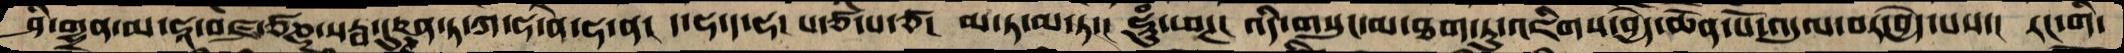ཤི་གྷྲན་མ་ཧཱ་བཛྲ་ཙཎྚ་སརྦ་དུཥྚན་ཏ་ཀ་ཧ་ན་ཧ་ན། ད་ཧ་ད་ཧ་ པ་ཙ་པ་ཙ་ མ་ཏ་མ་ཏ་ ཧཱུཾ་ཕཊ། འདི་གསུང་མ་ཐག་ཏུ་འཇིགས་བྱེད་ཆེན་པོ་འདུལ་བར་བྱེད་པས་། རང་གི་
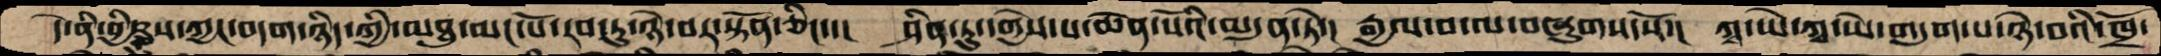དེ་ནི་བྱིཥྞས་ཀྱང་བདག་ཉིད་ཀྱི་མཐུ་མང་པོ་རབ་ཏུ་ཉེ་བར་སྟོན་ཅིང་་། ཤིན་ཏུ་དགྱེས་པ་ཆེན་པོའི་མདུན་ཏེ་། རྒྱལ་བ་ལ་བཞུགས་སོ་། ཀྵ་ཡེ་ཀྵ་ཡེ་གདུག་པ་ཉེ་བའི་ཁྲོ་
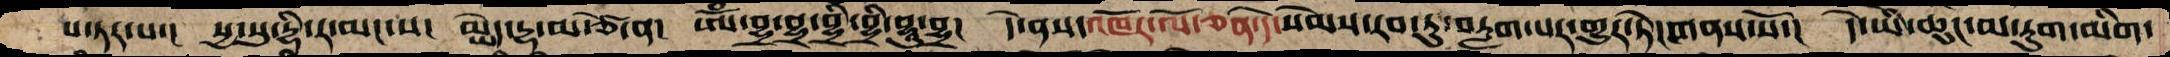པ་ཏར་པ་། སྱ་སུ་དྷི་ར་མང་ས། མྱེད་དྷ་མ་ཙེ་ན། ཨོཾ་བྷྲ་བྷྲ་བྷྲི་བྷྲི་བྷཱུ་བྷྲ། དེ་ནས་འཁོར་ལོ་ཅན་དེ་སེམས་རབ་ཏུ་བརླག་པར་གྱུར་ཏེ་གནས་སོ་། དེ་ཡི་ཆུང་མ་རུག་མིག་
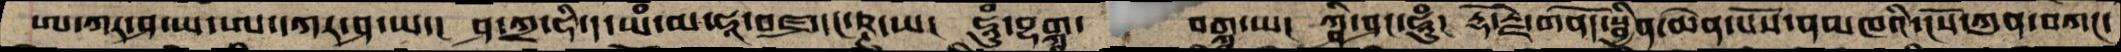ཨ་ཀར་ཤ་ཡ་ཨ་དཀར་ཤ་ཡ་། ཤ་ཀྲ་ཧི་ད་ཡཾ་མ་ཧཱ་བཛྲ་དང་ཥྚ་ཡ། ཧཱུཾ་བྷགྩ་  བགྩཡ། ཀྴི་ཤང་ཧཱུཾ། རྡོ་རྗེ་གནོད་སྦྱིན་ཆེན་པོས་ནམཁའི་ངོས་ཀུན་བཀང་
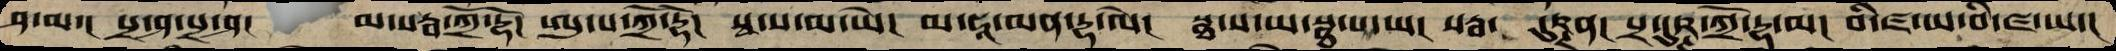ཤ་མ་། པྲ་ཤ་པྲ་ཤ་  མ་སརྦ་ཀྲོ་དྷོ། ཨུ་པ་ཀྲོ་དྷ། སྭ་ས་མ་ཡེ། མ་ཧཱ་མན་དྷ་ལེ། སྠ་ས་ཡ་སྠ་པ་ཡ། སརྦ་ དུཥྚན། པྲ་དུཥྚ་ཀྲོ་དྷ་མ། བི་ཛ་ཡ་བི་ཛ་ཡ།
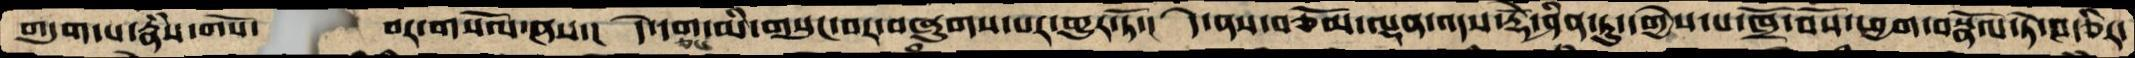གདུག་པ་རྣཾས་གསོ་    བར་གསོལ་ནས་། དེ་དག་ཅང་མི་གསུང་བར་བཞུགས་པར་གྱུར་ཏོ་། དེ་ནས་བཅོམ་ལྡན་འདས་རྡོེ་ཤིན་ཏུ་དགྱེས་པ་ཁྲོ་བོས་ཕྱག་བསྣོལ་ཏེ་བརྩིར་
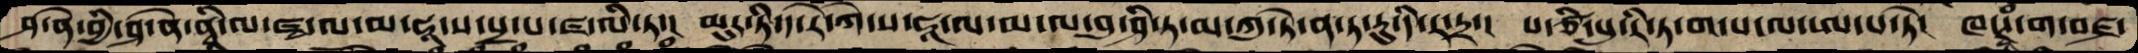ཤ་ནེ་བྱི་ཤ་ནེ་ནི་ལ་ཛྭ་ལ་མ་ཧཱ་ས་པྲ་པ་ཛ་ལི་ཏ་།  མུར་ཏི་ད་རེ་ཀེ་ས་ཧཱ་ལ་མ་ལ་བུ་ཤི་ཏ་མ་ཀུ་ཏེ་ན་ཏ་རུ་དི་ར་ཏྲ་། པ་ཙི་སུ་རི་ཏ་ག་པ་ལ་ཨ་པ་ཏེ་ ཁ་ཊྭཾ་ག་བཛྲ་
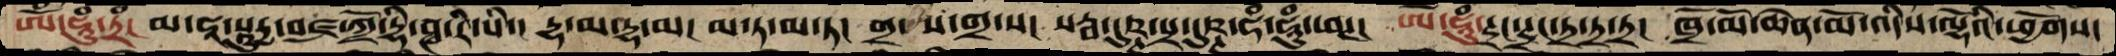ཨོཾ་ཧཱུཾ་ཏྲཾ་ མ་ཧཱ་སཱུརྱ་བཛྲ་ཀྲོ་དྷི་ཥྚ་རི་པི་།  དྷ་མ་དྷ་མ་ མ་ཏ་མ་ཏ་  གྲ་ས་གྲ་ས་ སརྦ་དུཋྚ་པྲ་དུཋྚ་ཧཾ་ཧཱུཾ་ཕཊ།  ཨོཾ་ཧཱུཾ་ཊྲང་ཊྲང་ཏྲ་ཏྲ་  ཁྲོ་མོ་ཆེན་མོ་འདིས་ལྷོའི་ཕྱོགས་
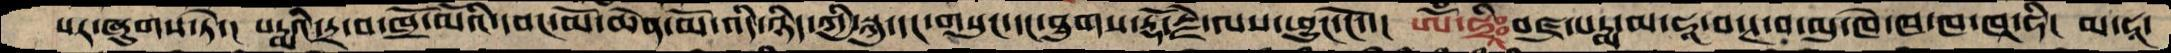པར་ཞུགས་ཏེ་།  པདྨའི་ཏྲ་བ་ཁྲོ་མོའི་དབང་མོ་ཆེན་མོ་འདི་ཉིད་ཀྱི་སྐུ་དང་གསུང་དང་ཐུགས་རྡོ་རྗེ་ལས་ཕྱུང་ངོ་་།  ཨོཾ་ཧྲཱིཿབཛྲ་པདྨ་མ་ཧཱ་བ་ཊ་བ་མུ་ཁེ་ཁ་ཁ་ཁཱ་ཧི།  མ་ཧཱ་
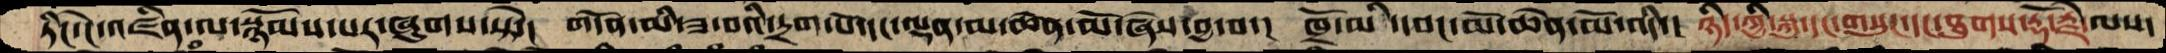ཏིང་ངེ་འཛིན་ལ་སྙོམས་པར་ཞུགས་པ་སྟེ་།  གདོན་མི་ཟ་བའི་དྲག་པོ་དང་ལྡན་མ་ཆེན་མོ་ཞེས་བྱ་བ་།  ཁྲོ་མི་དབང་མོ་ཆེན་མོ་འདི་།  ཉིད་ཀྱི་སྐུ་དང་གསུང་དང་ཐུགས་རྡོ་རྗེ་ལས་
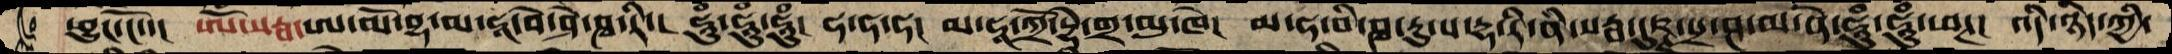ཕྱུང་ངོ་་།  ཨོཾ་སརྦ་ཨ་མོ་བྷ་མ་ཧཱ་བེ་ཤེ་ཤྭ་རི་།  ཧཱུཾ་ཧཱུཾ་ཧཱུཾ་  ཧ་ཧ་ཧ།  མ་ཧཱ་ཀྲོ་དྷི་གྲ་མུ་ཁེ།  མ་ཧཱ་བི་ཤྭ་རུ་ས་དྷ་རི་ནི་སརྦ་དུཥྚ་པྲ་ཤ་ལ་ནེ་ཧཱུཾ་ཧཱུཾ་ཕཊ།  འདི་ཉིད་ཀྱི་
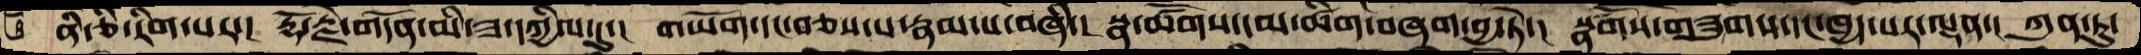ནི་ཅི་རིག་པར་། རྡོ་རྗེ་གདོན་མི་ཟ་དཀྱིལ་དུ་། གཡོག་དང་བཅས་པ་རྣམ་པ་བཞི་། སྣ་ཚོགས་དམ་ཚིག་བཞག་བྱ་ཏེ་། སྣཚོགས་གཟུགས་དང་ཁྱད་པར་ལྡན་། ཀུན་ཏུ་
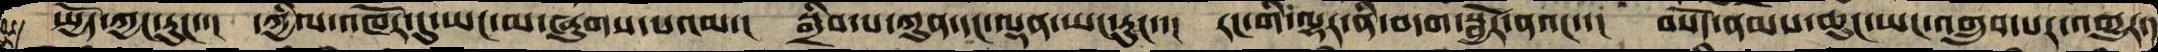སྤྱོད་ཀྱང་རུང་་། དཀྱིལ་འཁོར་དུ་ཡང་མ་ཞུགས་པའམ་། སྒྲིབ་པ་ཀུན་དང་ལྡན་ཡང་རུང་་། རང་གི་ལྷར་ནི་བདག་སྦྱོར་ནའང་་། བསོད་ནམས་ཆུང་ཡང་འགྲུབ་པར་འགྱུར་།
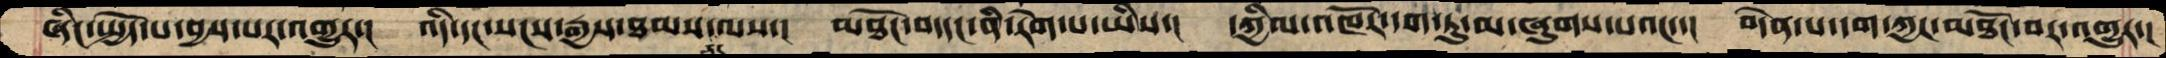ཞིང་སྤྱོད་པ་བྱས་པར་འགྱུར་། འདི་དང་སངས་རྒྱས་ཐམས་ཅད་ལས་། མཐོང་བ་དང་ནི་རེག་པ་ཡིས་། དཀྱིལ་འཁོར་དག་ཏུ་མ་ཞུགས་པའང་་། བདེན་པ་དག་ཀྱང་མཐོང་བར་འགྱུར་།
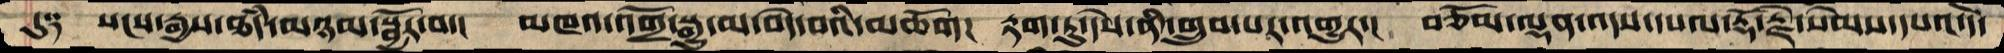དུ༑ སངས་རྒྱས་ཐདཾ་མཉམ་སྦྱོར་བ་། མཁའ་འགྲོ་སྒྱུ་མ་བདེ་བའི་མཆོག། རྟག་ཏུ་དེས་ནི་གྲུབ་པར་འགྱུར་། བཅོམ་ལྡན་འདས་དཔལ་རྡོ་རྗེ་སེམས་དཔའ་དོ་
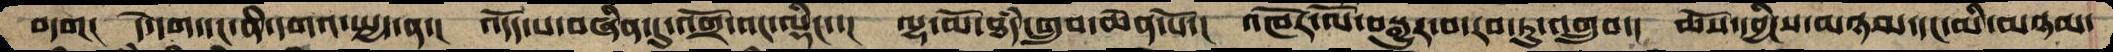བདག།  དེ་དག་དང་ནི་དགའ་སྤྱད་ན་།  འདོད་པ་བཞིན་དུ་འགྲོ་འང་ལྡིང་་།  ལྷ་མོ་ཐཾད་གྲུབ་ཆེན་པོ་།  འཁོར་ལོ་བསྒྱུར་བ་རབ་ཏུ་འགྲུབ་།  ཆོས་དབྱིངས་མཉམ་དང་མི་མཉམ་
